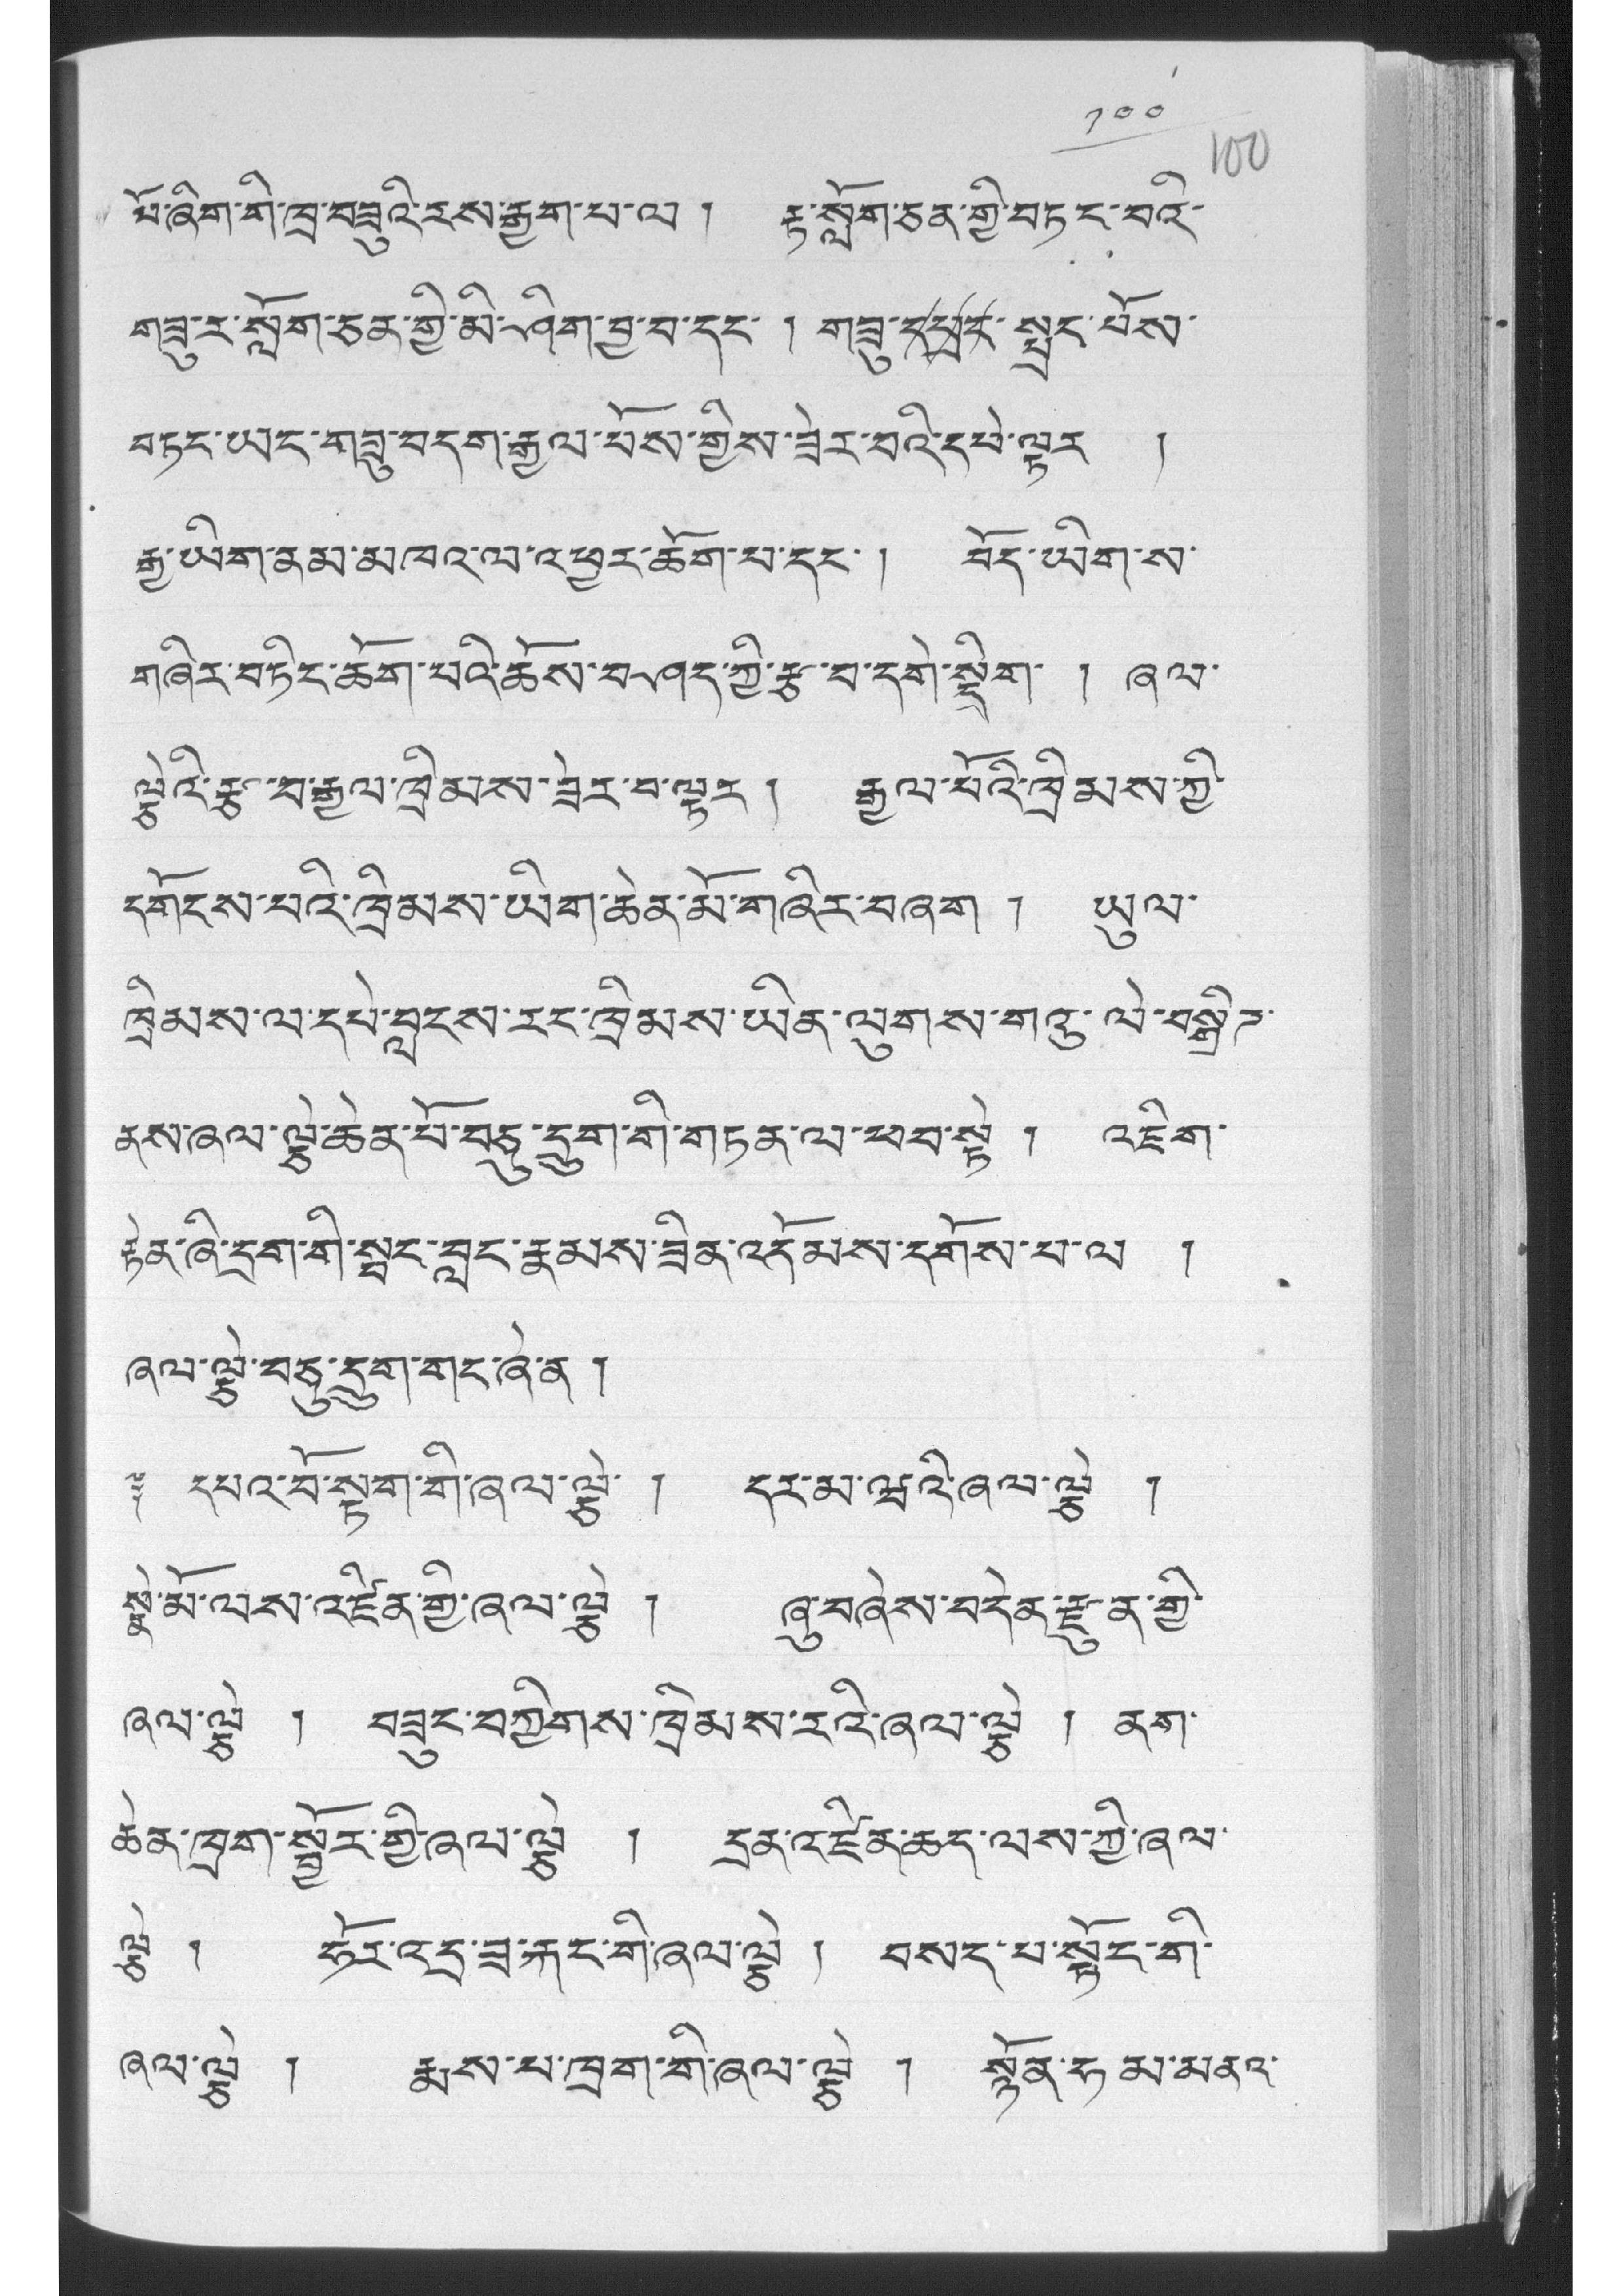༡༠༠
པོ་ཞིག་གི་ཁྲ་བཟུའི་རས་རྒྱག་པ་ལ ། རྟ་སློག་ཅན་གྱི་བཏང་བའི་
གཟུ་ར་སློག་ཅན་གྱི་མི་ཤིག་བྱ་བ་དང་ ། གཟུ་དཔྲང་སྤྲང་པོས་
བཏང་ཡང་གཟུ་བདག་རྒྱལ་པོས་གྱིས་ཟེར་བའི་དཔེ་ལྟར །
རྒྱ་ཡིག་ནམ་མཁའ་ལ་འཕྱར་ཆོག་པ་དང་། བོད་ཡིག་ས་
གཞིར་བཏིང་ཆོག་པའི་ཆོས་བཤད་ཀྱི་རྩ་བ་དགེ་སྡིག་ ། ཞལ་
ལྕེའི་རྩ་བ་རྒྱལ་ཁྲིམས་ཟེར་བ་ལྟར ། རྒྱལ་པོའི་ཁྲིམས་ཀྱི་
དགོངས་པའི་ཁྲིམས་ཡིག་ཆེན་མོ་གཞིར་བཞག ། ཡུལ་
ཁྲིམས་ལ་དཔེ་བླངས་རང་ཁྲིམས་ཡིན་ལུགས་གའུ་ལེ་བསྒྲིཌ་
ནས་ཞལ་ལྕེ་ཆེན་པོ་བདུ་དྲུག་གི་གཏན་ལ་ཕབ་སྟེ ། འཇིག་
རྟེན་ཞི་དྲག་གི་སྦང་བླང་རྣམས་ཟིན་འདོམས་དགོས་པ་ལ །
ཞལ་ལྕེ་བཅུ་དྲུག་གང་ཞེ་ན།
༈ དཔའ་བོ་སྟག་གི་ཞལ་ལྕེ་ ། དར་མ་ཝའི་ཞལ་ལལྕེ །
སྣེ་མོ་ལས་འཛིན་གྱི་ཞལ་ལྕེ ། ཞུ་བཞེས་བདེན་རྫུན་གྱི་
ཞལ་ལྕེ ། བཟུང་བཀྱིགས་ཁྲིམས་རའི་ཞལ་ལྕེ ། ནག་
ཆེན་ཁྲག་སྦྱོར་གྱི་ཞལ་ལྕེ ། དྲན་འཛིན་ཆད་ལས་ཀྱི་ཞལ་
ལྕེ ། ཧོར་འདྲ་ཟ་རྐང་གི་ཞལ་ལྕེ ། བསད་པ་སྟོང་གི་
ཞལ་ལྕེ ། རྨས་པ་ཁྲག་གི་ཞལ་ལྕེ ། སྙོན་ཧམ་མནའ་
